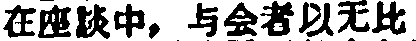在座談中，与会者以无比
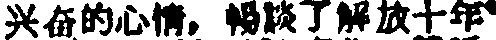兴奋的心情，暢談了解放十年
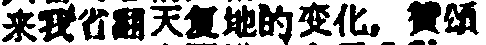来我省翻天复地的变化，贊頌
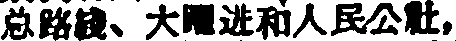总路綫、大躍进和人民公社，
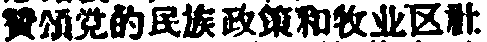贊頌党的民族政策和牧业区社
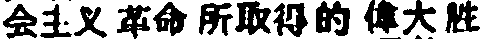会主义革命所取得的偉大胜
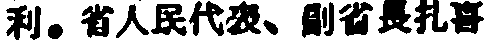利。省人民代表、副省長扎喜
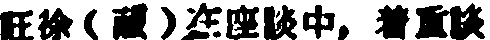旺徐（藏）在座談中。着重談
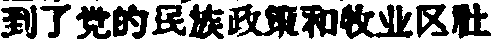到了党的民族政策和牧业区社
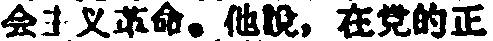会主义革命。他說，在党的正
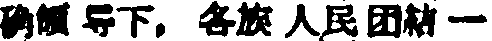确領导下，各族人民团結一
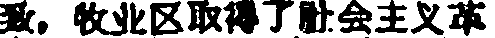致，牧业区取得了社会主义革
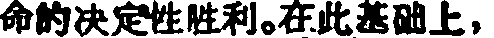命的决定性胜利。在此基础上，
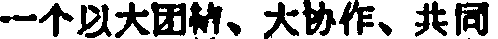一个以大团結、大协作、共同
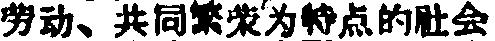劳动、共同繁荣为特点的社会
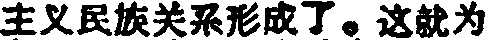主义民族关系形成了。这就为
